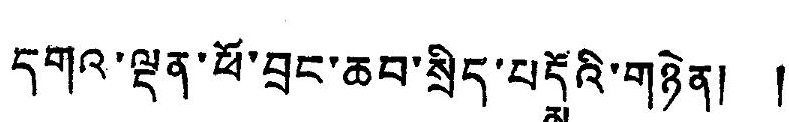དགའ་ལྡན་ཕོ་བྲང་ཆབ་སྲིད་པདྨོའི་གཉེན། །
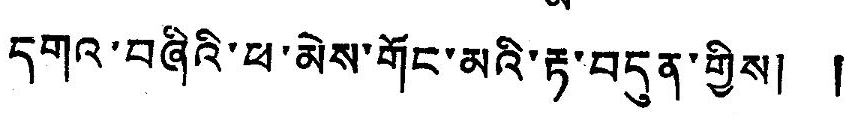དགའ་བཞིའི་ཕ་མེས་གོང་མའི་རྟ་བདུན་གྱིས། །
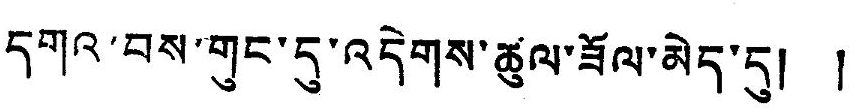དགའ་བས་གུང་དུ་འདེགས་ཚུལ་ཟོལ་མེད་དུ། །
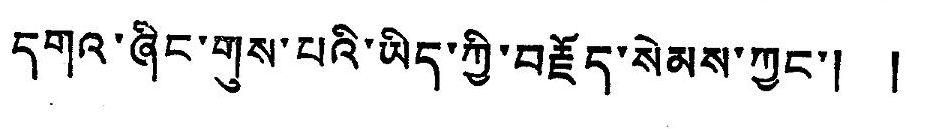དགའ་ཞིང་གུས་པའི་ཡིད་ཀྱི་བརྗོད་སེམས་ཀྱང་། །
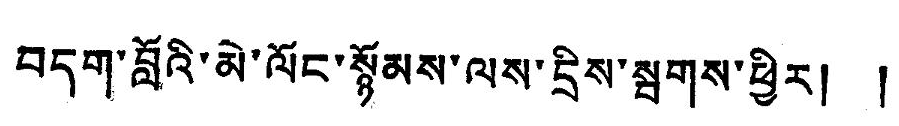བདག་བློའི་མེ་ལོང་སྙོམས་ལས་དྲིས་སྦགས་ཕྱིར། །
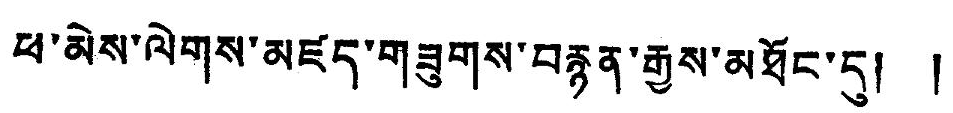ཕ་མེས་ལེགས་མཛད་གཟུགས་བརྙན་རྒྱས་མཐོང་དུ། །
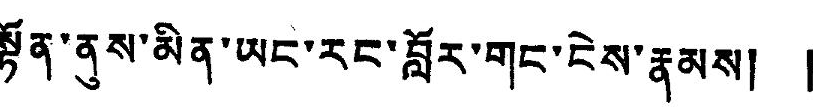སྟོན་ནུས་མིན་ཡང་རང་བློར་གང་ངེས་རྣམས། །
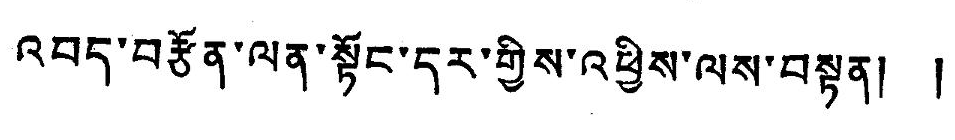འབད་བརྩོན་ལན་སྟོང་དར་གྱིས་འཕྱིས་ལས་བསྟན། །
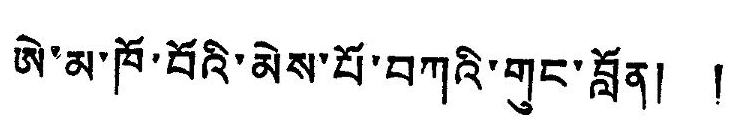ཨེ་མ་ཁོ་བོའི་མེས་པོ་བཀའི་གུང་བློན། །
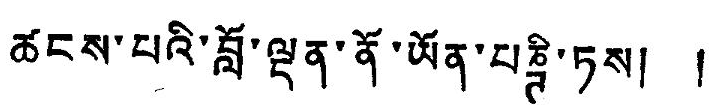ཚངས་པའི་བློ་ལྡན་ནོ་ཡོན་པཎྚི་ཏས། །
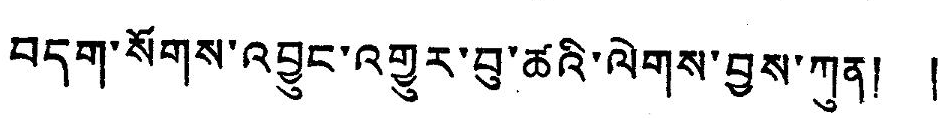བདག་སོགས་འབྱུང་འགྱུར་བུ་ཚའི་ལེགས་བྱས་ཀུན། །
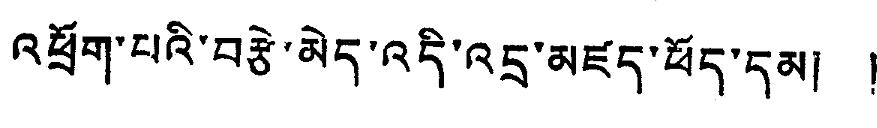འཕྲོག་པའི་བརྩེ་མེད་འདི་འདྲ་མཛད་ཕོད་དམ། །
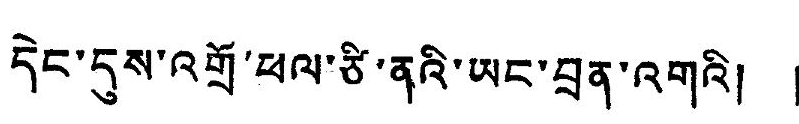དེང་དུས་འགྲོ་ཕལ་ཙི་ནའི་ཡང་བྲན་འགའི། །
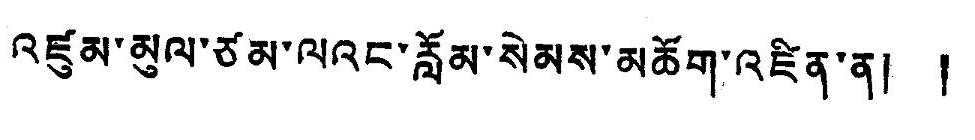འཛུམ་མུལ་ཙམ་ལའང་རློམ་སེམས་མཆོག་འཛིན་ན། །
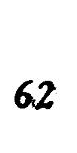62
